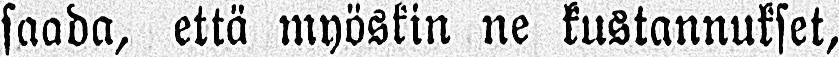saada, että myöskin ne kustannukset,
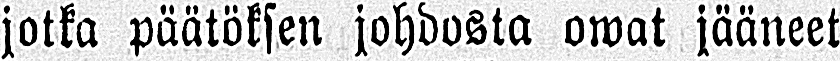jotka päätöksen johdosta owat jääneet
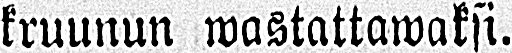kruunun wastattawaksi.
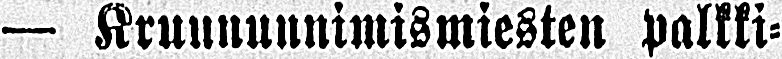— Kruununnimismiesten palkki-
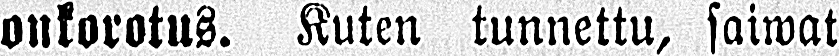onkorotus. Kuten tunnettu, saiwat
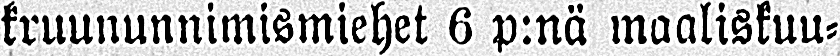kruununnimismiehet 6 p:nä maaliskuu-
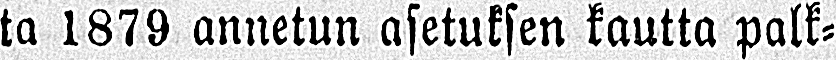ta 1879 annetun asetuksen kautta palk-
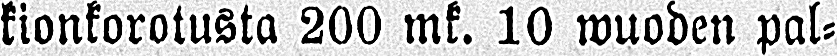kionkorotusta 200 mk. 10 wuoden pal-
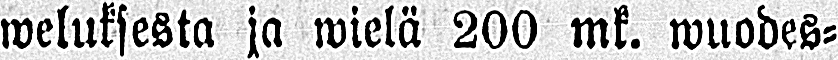weluksesta ja wielä 200 mk. wuodes-
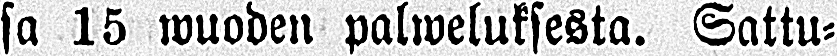sa 15 wuoden palweluksesta. Sattu-
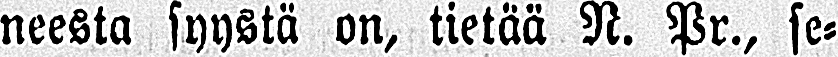neesta syystä on, tietää N. Pr., se-
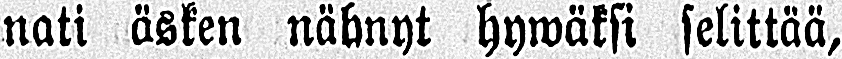nati äsken nähnyt hywäksi selittää,
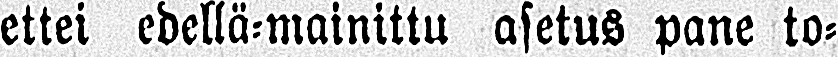ettei edellä-mainittu asetus pane to-
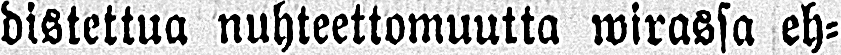distettua nuhteettomuutta wirassa eh-
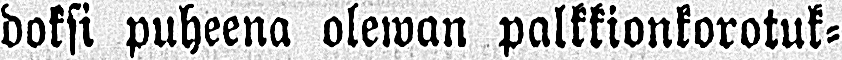doksi puheena olewan palkkionkorotuk-
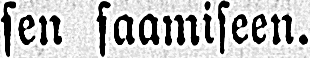sen saamiseen.
